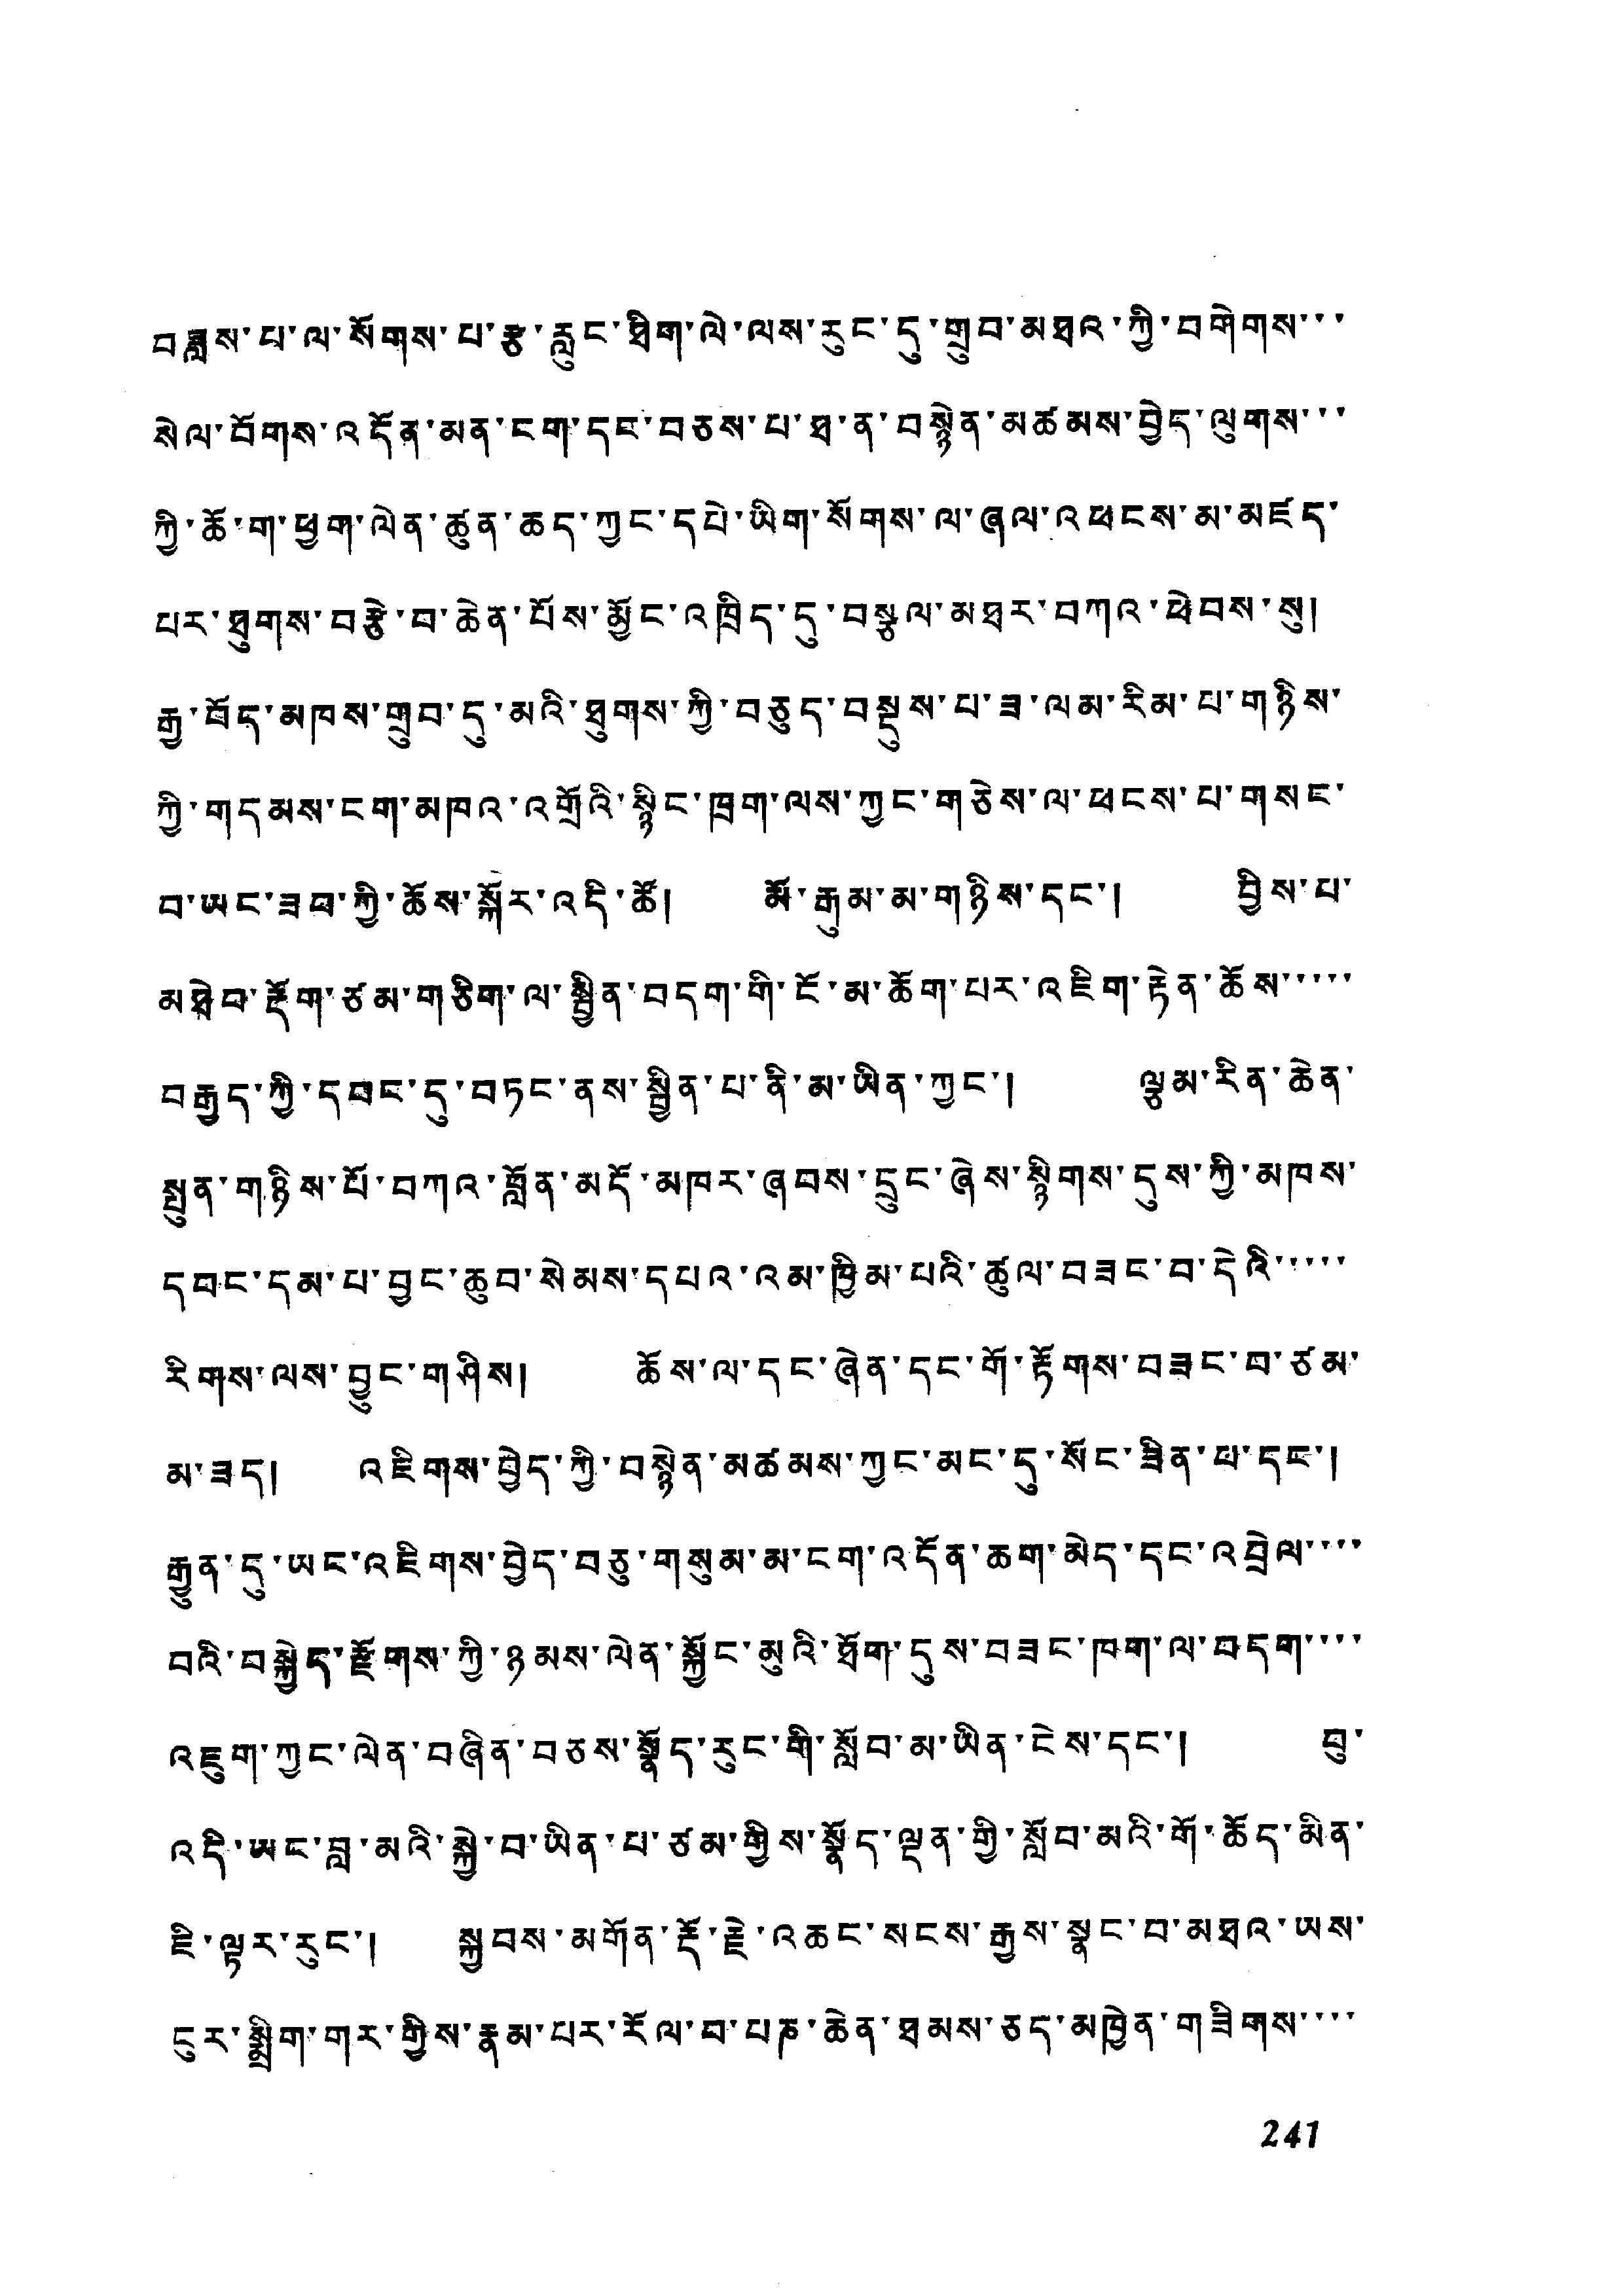བཟླས་པ་ལ་སོགས་པ་རྩ་རླུང་ཐིག་ལེ་ལས་རུང་དུ་གྲུབ་མཐའ་ཀྱི་བགེགས་་་
སེལ་བོགས་འདོན་མན་ངག་དང་བཅས་པ་ཐ་ན་བསྙེན་མཚམས་བྱེད་ལུགས་་་
ཀྱི་ཆོ་ག་ཕྱག་ལེན་ཚུན་ཆད་ཀྱང་དཔེ་ཡིག་སོགས་ལ་ཞལ་འཕངས་མ་མཛད་
པར་ཐུགས་བརྩེ་བ་ཆེན་པོས་མྱོང་འཁྲིད་དུ་བསྩལ་མཐར་བཀའ་ཕེབས་སུ།
རྒྱ་བོད་མཁས་གྲུབ་དུ་མའི་ཐུགས་ཀྱི་བཅུད་བསྡུས་པ་ཟ་ལམ་རིམ་པ་གཉིས
་ཀྱི་གདམས་ངག་མཁའ་འགྲོའི་སྙིང་ཁྲག་ལས་ཀྱང་གཅེས་ལ་ཕངས་པ་གསང་
བ་ཡང་ཟབ་ཀྱི་ཆོས་སྐོར་འདི་ཚོ། མོ་རྒུམ་མ་གཉིས་དང་། བྱིས་པ་
མཐེབ་རྡོག་ཙམ་གཅིག་ལ་སྦྱིན་བདག་གི་ངོ་མ་ཆོག་པར་འཇིག་རྟེན་ཆོས་་་་་
བརྒྱད་ཀྱི་དབང་དུ་བཏང་ནས་སྦྱིན་པ་ནི་མ་ཡིན་ཀྱང་། ལྕམ་རིན་ཆེན་
སྤུན་གཉིས་པོ་བཀའ་བློན་མདོ་མཁར་ཞབས་དྲུང་ཞེས་སྙིགས་དུས་ཀྱི་མཁས་
དབང་དམ་པ་བྱང་ཆུབ་སེམས་དཔའམ་ཁྱིམ་པའི་ཚུལ་བཟང་བ་དེའི་་་་་
རིགས་ལས་བྱུང་གཤིས། ཆོས་ལ་དང་ཞེན་དང་གོ་རྟོགས་བཟང་བ་ཙམ་
མ་ཟད། འཇིགས་བྱེད་ཀྱི་བསྙེན་མཚམས་ཀྱང་མང་དུ་སོང་ཟིན་པ་དང་།
རྒྱུན་དུ་ཡང་འཇིགས་བྱེད་བཅུ་གསུམ་མ་ངག་འདོན་ཆག་མེད་དང་འབྲེལ་་་་
བའི་བསྐྱེད་རྫོགས་ཀྱི་ཉམས་ལེན་སྐྱོང་མུའི་ཐོག་དུས་བཟང་ཁག་ལ་བདག་་་་
འཇུག་ཀྱང་ལེན་བཞིན་བཅས་སྣོད་རུང་གི་སློབ་མ་ཡིན་ངེས་དང་། བུ་
འདི་ཡང་བླ་མའི་སྐྱེ་བ་ཡིན་པ་ཙམ་གྱིས་སྣོད་ལྡན་གྱི་སློབ་མའི་གོ་ཆོད་མིན་
ཇི་ལྟར་རུང་། སྐྱབས་མགོན་རྡོ་རྗེ་འཆང་སངས་རྒྱས་སྣང་བ་མཐའ་ཡས་
ངུར་སྨྲིག་གར་གྱིས་རྣམ་པར་རོལ་བ་པཎ་ཆེན་ཐམས་ཅད་མཁྱེན་གཟིགས་་་་
241
